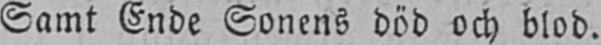Samt Ende Sonens död och blod.
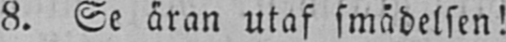8. Se äran utaf smädelsen!
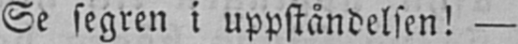Se segren i uppståndelsen! —
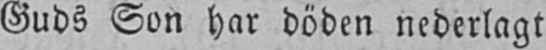Guds Son har döden nederlagt
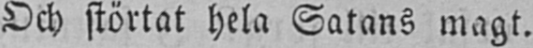Och störtat hela Satans magt.
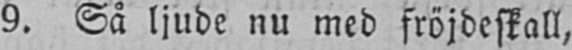9. Så ljude nu med fröjdeskall,
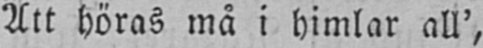Att höras må i himlar all',
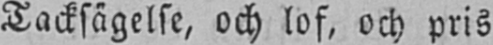Tacksägelse, och lof, och pris
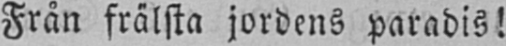Från frälsta jordens paradis!
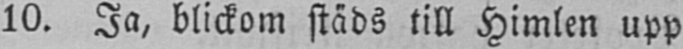10. Ja, blickom städs till Himlen upp
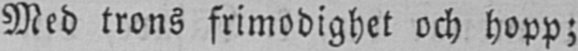Med trons frimodighet och hopp;
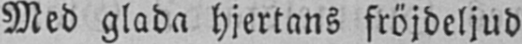Med glada hjertans fröjdeljud
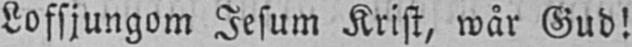Lofsjungom Jesum Krist, wår Gud!
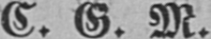C. G. M.
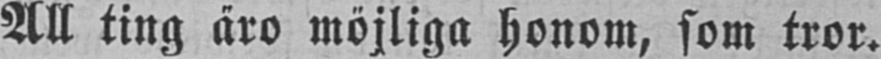All ting äro möjliga honom, som tror.
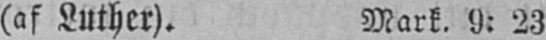(af Luther). Mark. 9: 23
